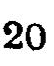20
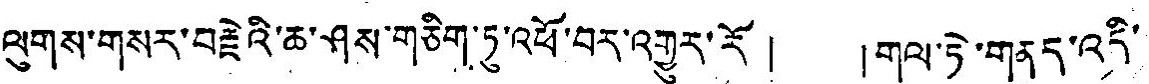ལུགས་གསར་བརྗེའི་ཆ་ཤས་གཅིག་ཏུ་འཕོ་བར་འགྱུར་རོ ། །གལ་རེ་གནད་འདི་
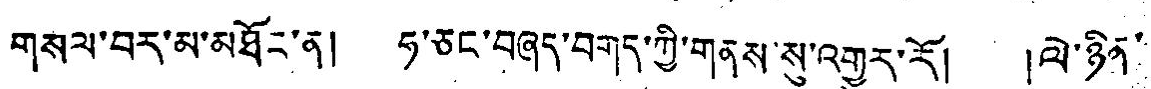གསལ་བར་མ་མཐོང་ན། ཧ་ཅང་བཞད་བགད་ཀྱི་གནས་སུ་འགྱུར་རོ། །ལེ་ཉིན་
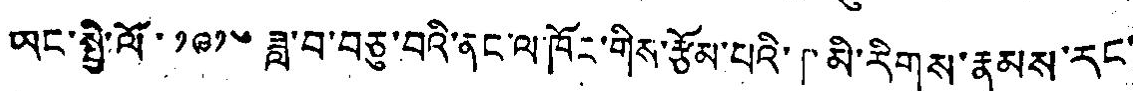ཡང་སྤྱི་ལོ་ ༡༩༡༦ ཟླ་བ་བཅུ་བའི་ནང་ལ་ཁོང་གིས་རྩོམ་པའི་「མི་རིགས་རྣམས་རང་
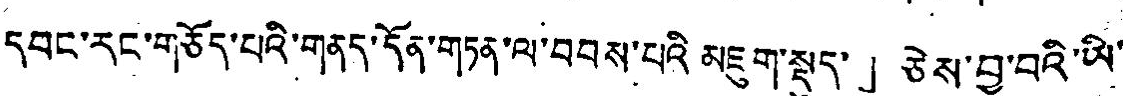དབང་རང་གཅོད་པའི་གནད་དོན་གཏན་ལ་བབས་པའི་མཇུག་སྡུད་」ཅེས་བྱ་བའི་ཡི་
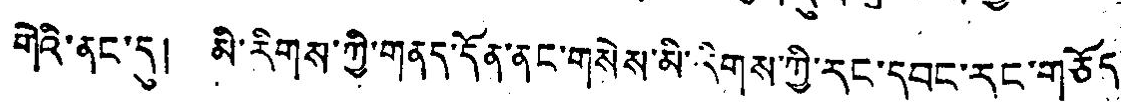གེའི་ནང་དུ། མི་རིགས་ཀྱི་གནད་དོན་ནང་གསེས་མི་རིགས་ཀྱི་རང་དབང་རང་གཅོད་
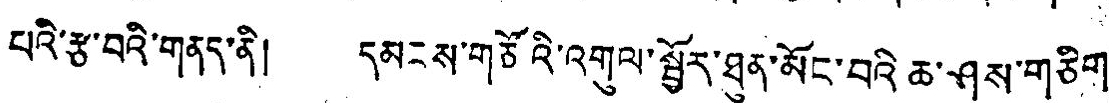པའི་རྩ་བའི་གནད་ནི། དམངས་གཙོའི་འགུལ་སྦྱོར་ཐུན་མོང་བའི་ཆ་ཤས་གཅིག་
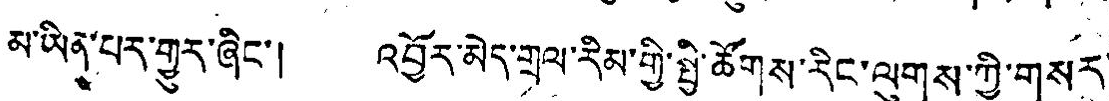མ་ཡིན་པར་གྱུར་ཞིང་། འབྱོར་མེད་གྲལ་རིམ་གྱི་སྤྱི་ཚོགས་རིང་ལུགས་ཀྱི་གསར་
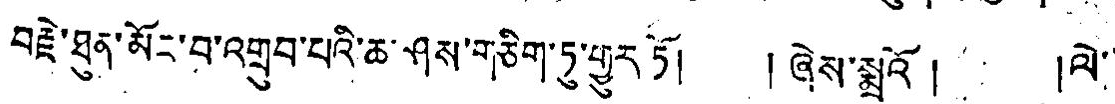བརྗེ་ཐུན་མིང་བ་འགྲུབ་པའི་ཆ་ཤས་གཅིག་ཏུ་གྱུར་ཏོ། ། ཞེས་སྨྲའོ ། །ལེ་་
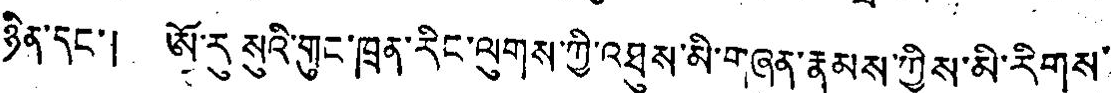ཉིན་དང་། ཨོ་རུ་སུའི་གུང་ཁྲན་རིང་ལུགས་ཀྱི་འཐུས་མི་གཞན་རྣམས་ཀྱིས་མི་རིགས་
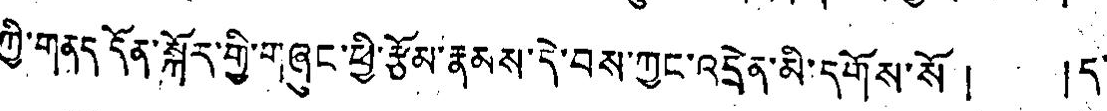ཀྱི་གན་དོན་སྐོར་གྱི་གཞུང་ཕྱི་རྩོམ་རྣམས་དེ་བས་ཀྱང་འདྲེན་མི་དགོས་སོ ། །ད་
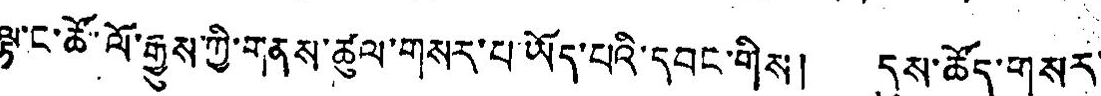ལྟ་ང་ཚོ་ལོ་རྒྱུས་ཀྱི་གནས་ཚུལ་གསར་པ་ཡོད་པའི་དབང་གིས། དུས་ཚོད་གསར་
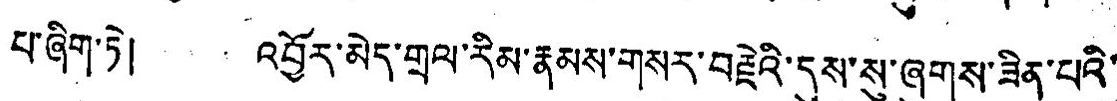པ་ཞིག་ཏེ། འབྱོར་མེད་གྲལ་རིམ་རྣམས་གསར་བརྗེའི་དུས་སུ་ཞུགས་ཟིན་པའི་
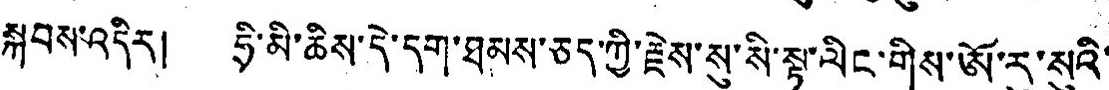སྐབས་འདིར། ཧྲི་མི་ཆིས་དེ་དག་ཐམས་ཅད་ཀྱི་རྗེས་སུ་སི་སྟ་ལིང་གིས་ཨོ་རུ་སུའི་
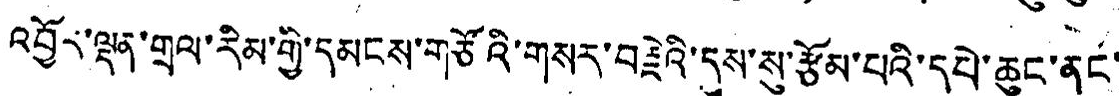འབྱོར་ལྡན་གྲལ་རིམ་གྱི་དམངས་གཙོའི་གསར་བརྗེའི་དུས་སུ་རྩོམ་པའི་དཔེ་ཆུང་ནང་
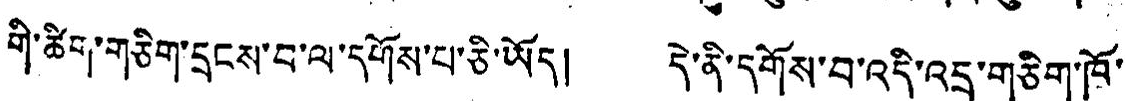གི་ཚིག་གཅིག་དྲངས་བ་ལ་དགོས་པ་ཅི་ཡོད། དེ་ནི་དགོས་བ་འདི་འདྲ་གཅིག་ཁོ་
